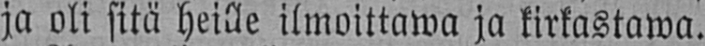ja oli sitä heille ilmoittawa ja kirkastawa.
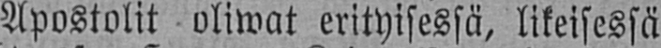Apostolit oliwat erityisessä, likeisessä
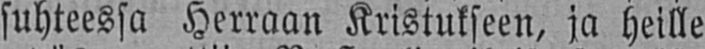suhteessa Herraan Kristukseen, ja heille
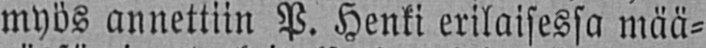myös annettiin P. Henki erilaisessa mää-
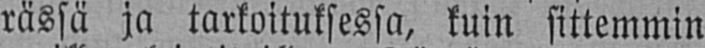rässä ja tarkoituksessa, kuin sittemmin
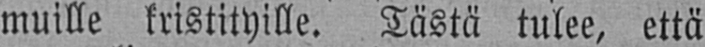muille kristityille. Tästä tulee, että
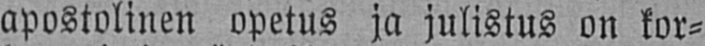apostolinen opetus ja julistus on kor-
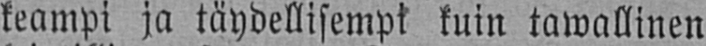keampi ja täydellisempi kuin tawallinen
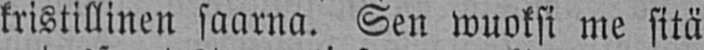kristillinen saarna. Sen wuoksi me sitä
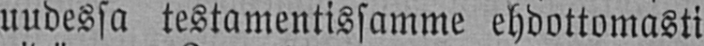uudessa testamentissamme ehdottomasti
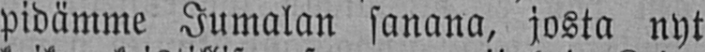pidämme Jumalan sanana, josta nyt
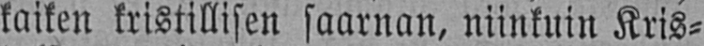kaiken kristillisen saarnan, niinkuin Kris-
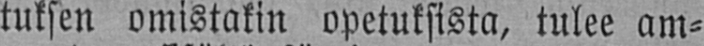tuksen omistakin opetuksista, tulee am-
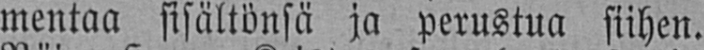mentaa sisältönsä ja perustua siihen.
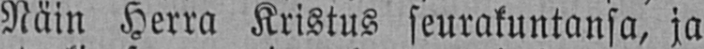Näin Herra Kristus seurakuntansa, ja
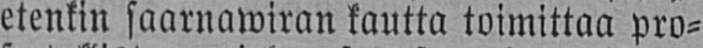etenkin saarnawiran kautta toimittaa pro-
